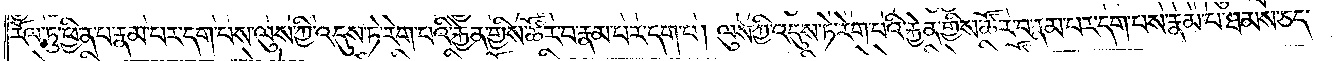རོལ་ཏུ་ཕྱིན་པ་རྣམ་པར་དག་པས་ལུས་ཀྱི་འདུས་ཏེ་རེག་པའི་རྐྱེན་གྱིས་ཚོར་བ་རྣམ་པར་དག་པ། ལུས་ཀྱི་འདུས་ཏེ་རེག་པའི་རྐྱེན་གྱིས་ཚོར་བ་རྣམ་པར་དག་པས་རྣམ་པ་ཐམས་ཅད་
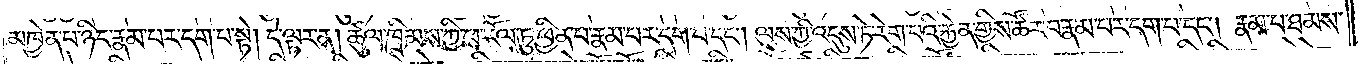མཁྱེན་པ་ཉིད་རྣམ་པར་དག་པ་སྟེ། དེ་ལྟར་ན། ཚུལ་ཁྲིམས་ཀྱི་ཕ་རོལ་ཏུ་ཕྱིན་པ་རྣམ་པར་དག་པ་དང༌། ལུས་ཀྱི་འདུས་ཏེ་རེག་པའི་རྐྱེན་གྱིས་ཚོར་བ་རྣམ་པར་དག་པ་དང༌། རྣམ་པ་ཐམས་
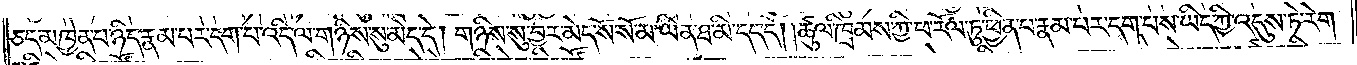ཅད་མཁྱེན་པ་ཉིད་རྣམ་པར་དག་པ་འདི་ལ་གཉིས་སུ་མེད་དེ། གཉིས་སུ་བྱར་མེད་སོ་སོ་མ་ཡིན་ཐ་མི་དད་དོ། །ཚུལ་ཁྲིམས་ཀྱི་ཕ་རོལ་ཏུ་ཕྱིན་པ་རྣམ་པར་དག་པས་ཡིད་ཀྱི་འདུས་ཏེ་རེག་
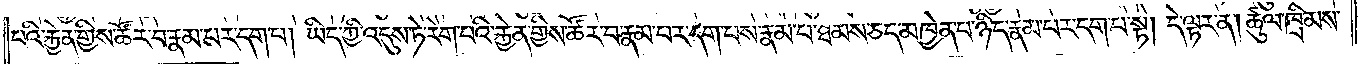པའི་རྐྱེན་གྱིས་ཚོར་བ་རྣམ་པར་དག་པ། ཡིད་ཀྱི་འདུས་ཏེ་རེག་པའི་རྐྱེན་གྱིས་ཚོར་བ་རྣམ་པར་དག་པས་རྣམ་པ་ཐམས་ཅད་མཁྱེན་པ་ཉིད་རྣམ་པར་དག་བ་སྟེ། དེ་ལྟར་ན། ཚུལ་ཁྲིམས་
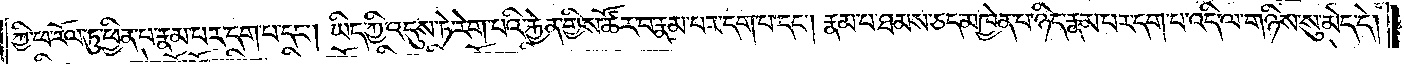ཀྱི་ཕ་རོལ་ཏུ་ཕྱིན་པ་རྣམ་པར་དག་པ་དང༌། ཡིད་ཀྱི་འདུས་ཏེ་རེག་པའི་རྐྱེན་གྱིས་ཚོར་བ་རྣམ་པར་དག་པ་དང༌། རྣམ་པ་ཐམས་ཅད་མཁྱེན་པ་ཉིད་རྣམ་པར་དག་པ་འདི་ལ་གཉིས་སུ་མེད་དེ།
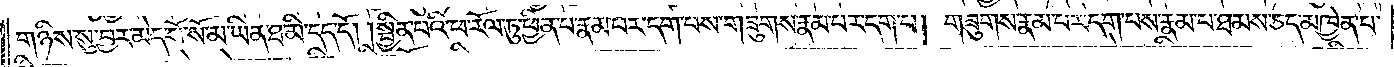གཉིས་སུ་བྱར་མེད་སོ་སོ་མ་ཡིན་ཐ་མི་དད་དོ། །སྦྱིན་པའི་ཕ་རོལ་ཏུ་ཕྱིན་པ་རྣམ་པར་དག་པས་གཟུགས་རྣམ་པར་དག་པ། གཟུགས་རྣམ་པར་དག་པས་རྣམ་པ་ཐམས་ཅད་མཁྱེན་པ་
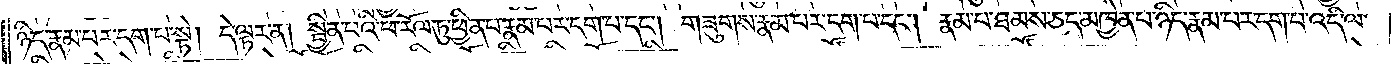ཉིད་རྣམ་པར་དག་པ་སྟེ། དེ་ལྟར་ན། སྦྱིན་པའི་ཕ་རོལ་ཏུ་ཕྱིན་པ་རྣམ་པར་དག་པ་དང༌། གཟུགས་རྣམ་པར་དག་པ་དང༌། རྣམ་པ་ཐམས་ཅད་མཁྱེན་པ་ཉིད་རྣམ་པར་དག་པ་འདི་ལ་
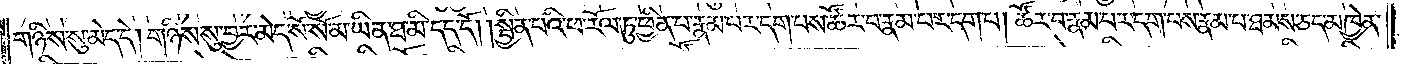གཉིས་སུ་མེད་དེ། གཉིས་སུ་བྱར་མེད་སོ་སོ་མ་ཡིན་ཐ་མི་དད་དོ། །སྦྱིན་པའི་ཕ་རོལ་ཏུ་ཕྱིན་པ་རྣམ་པར་དག་པས་ཚོར་བ་རྣམ་པར་དག་པ། ཚོར་བ་རྣམ་པར་དག་པས་རྣམ་པ་ཐམས་ཅད་མཁྱེན་
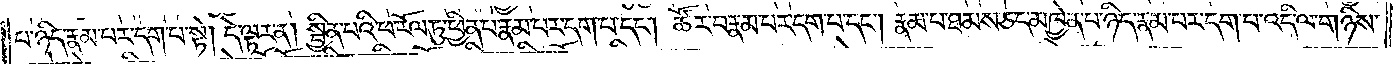པ་ཉིད་རྣམ་པར་དག་པ་སྟེ། དེ་ལྟར་ན། སྦྱིན་པའི་ཕ་རོལ་ཏུ་ཕྱིན་པ་རྣམ་པར་དག་པ་དང༌། ཚོར་བ་རྣམ་པར་དག་པ་དང༌། རྣམ་པ་ཐམས་ཅད་མཁྱེན་པ་ཉིད་རྣམ་པར་དག་པ་འདི་ལ་གཉིས་
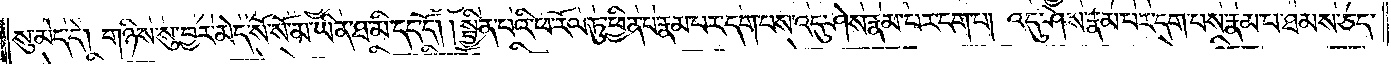སུ་མེད་དེ། གཉིས་སུ་བྱར་མེད་སོ་སོ་མ་ཡིན་ཐ་མི་དད་དོ། །སྦྱིན་པའི་ཕ་རོལ་ཏུ་ཕྱིན་པ་རྣམ་པར་དག་པས་འདུ་ཤེས་རྣམ་པར་དག་པ། འདུ་ཤེས་རྣམ་པར་དག་པས་རྣམ་པ་ཐམས་ཅད་
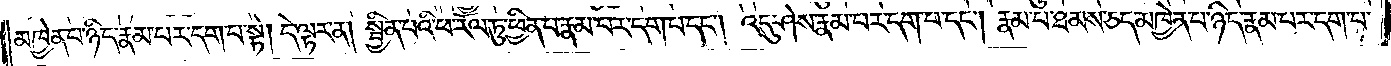མཁྱེན་པ་ཉིད་རྣམ་པར་དག་པ་སྟེ། དེ་ལྟར་ན། སྦྱིན་པའི་ཕ་རོལ་ཏུ་ཕྱིན་པ་རྣམ་པར་དག་པ་དང༌། འདུ་ཤེས་རྣམ་པར་དག་པ་དང༌། རྣམ་པ་ཐམས་ཅད་མཁྱེན་པ་ཉིད་རྣམ་པར་དག་པ།
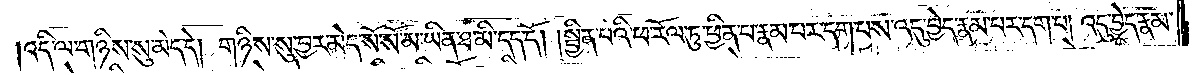འདི་ལ་གཉིས་སུ་མེད་དེ། གཉིས་སུ་བྱར་མེད་སོ་སོ་མ་ཡིན་ཐ་མི་དད་དོ། །སྦྱིན་པའི་ཕ་རོལ་ཏུ་ཕྱིན་པ་རྣམ་པར་དག་པས་འདུ་བྱེད་རྣམ་པར་དག་པ། འདུ་བྱེད་རྣམ་
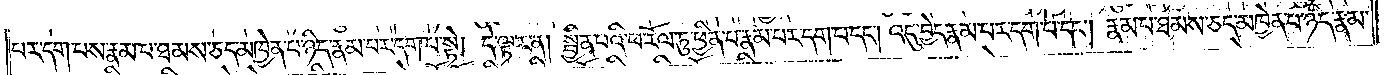པར་དག་པས་རྣམ་པ་ཐམས་ཅད་མཁྱེན་པ་ཉིད་རྣམ་པར་དག་པ་སྟེ། དེ་ལྟར་ན། སྦྱིན་པའི་ཕ་རོལ་ཏུ་ཕྱིན་པ་རྣམ་པར་དག་པ་དང༌། འདུ་བྱེད་རྣམ་པར་དག་པ་དང༌། རྣམ་པ་ཐམས་ཅད་མཁྱེན་པ་ཉིད་རྣམ་
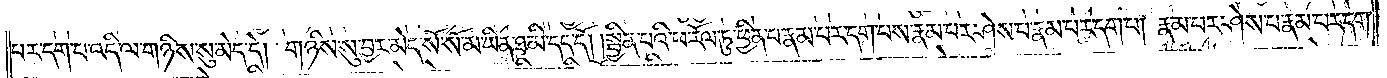པར་དག་པ་འདི་ལ་གཉིས་སུ་མེད་དེ། གཉིས་སུ་བྱར་མེད་སོ་སོ་མ་ཡིན་ཐ་མི་དད་དོ། །སྦྱིན་པའི་ཕ་རོལ་ཏུ་ཕྱིན་པ་རྣམ་པར་དག་པས་རྣམ་པར་ཤེས་པ་རྣམ་པར་དག་པ། རྣམ་པར་ཤེས་པ་རྣམ་པར་དག་
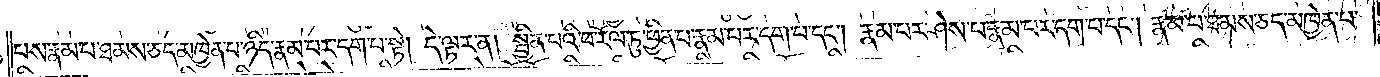པས་རྣམ་པ་ཐམས་ཅད་མཁྱེན་པ་ཉིད་རྣམ་པར་དག་པ་སྟེ། དེ་ལྟར་ན། སྦྱིན་པའི་ཕ་རོལ་ཏུ་ཕྱིན་པ་རྣམ་པར་དག་པ་དང༌། རྣམ་པར་ཤེས་པ་རྣམ་པར་དག་པ་དང༌། རྣམ་པ་ཐམས་ཅད་མཁྱེན་པ་
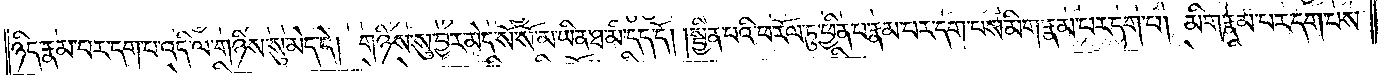ཉིད་རྣམ་པར་དག་པ་འདི་ལ་གཉིས་སུ་མེད་དེ། གཉིས་སུ་བྱར་མེད་སོ་སོ་མ་ཡིན་ཐ་མི་དད་དོ། །སྦྱིན་པའི་ཕ་རོལ་ཏུ་ཕྱིན་པ་རྣམ་པར་དག་པས་མིག་རྣམ་པར་དག་པ། མིག་རྣམ་པར་དག་པས་
